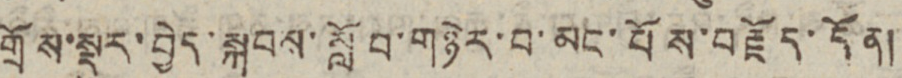གྲོས་སྡུར་བྱེད་སྐབས་སློབ་གཉེར་བ་མང་པོས་བརྗོད་དོན།
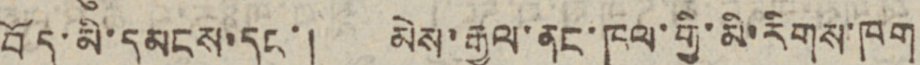བོད་མི་དམངས་དང་། མེས་རྒྱལ་ནང་ཁུལ་གྱི་མི་རིགས་ཁག
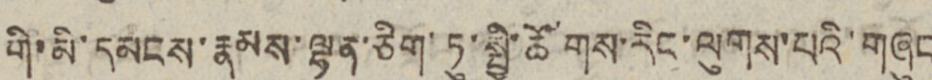གི་མི་དམངས་རྣམས་ལྷན་ཅིག་ཏུ་སྤྱི་ཚོགས་རིང་ལུགས་པའི་གཞུང
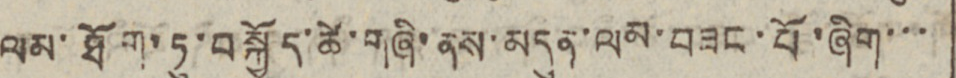ལམ་ཐོག་ཏུ་བསྐྱོད་ཚེ་གཞི་ནས་མདུན་ལམ་བཟང་པོ་ཞིག་་་
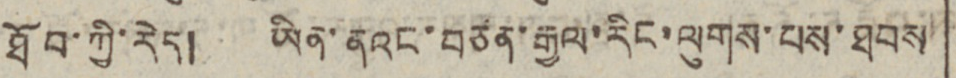ཐོབ་ཀྱི་རེད། ཡིན་ནའང་བཙན་རྒྱལ་རིང་ལུགས་པས་ཐབས
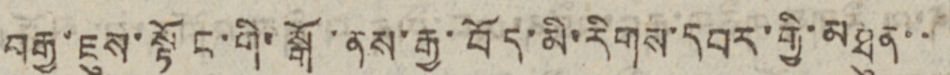བརྒྱ་ཇུས་སྟོང་གི་སྒོ་ནས་རྒྱ་བོད་མི་རིགས་དབར་གྱི་མཐུན་་
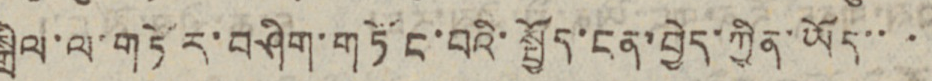སྒྲིལ་ལ་གཏོར་བཤིག་གཏོང་བའི་སྤྱོད་ངན་བྱེད་ཀྱིན་ཡོད་་་
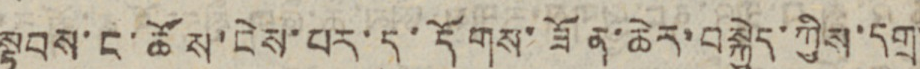སྟབས་ང་ཚོས་ངེས་པར་དུ་དོགས་ཟོན་ཆེར་བསྐྱེད་ཀྱིས་དགྲ་
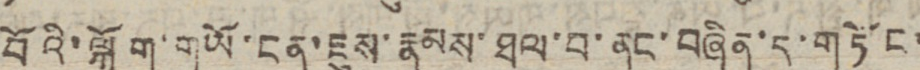བོའི་ལྐོག་གཡོ་ངན་ཇུས་རྣམས་ཐལ་བ་ནང་བཞིན་དུ་གཏོང་
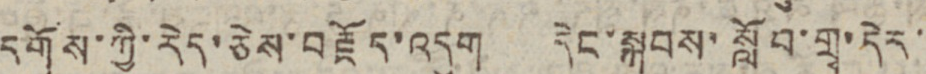དགོས་ཀྱི་རེད་ཅེས་བརྗོད་འདུག དེང་སྐབས་སློབ་གྲྭ་དེར་
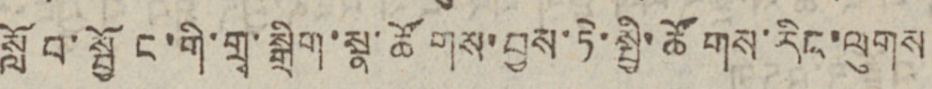སློབ་སྦྱོང་གི་གྲྭ་སྒྲིག་སྣ་ཚོགས་བྱས་ཏེ་སྤྱི་ཚོགས་རིང་ལུགས
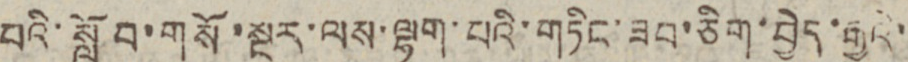པའི་སློབ་གསོ་སྔར་ལས་ལྷག་པའི་གཏིང་ཟབ་ཅིག་བྱེད་རྒྱུའི་
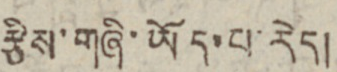རྩིས་གཞི་ཡོད་པ་རེད།
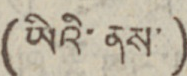(ཡིའི་ནས་)
